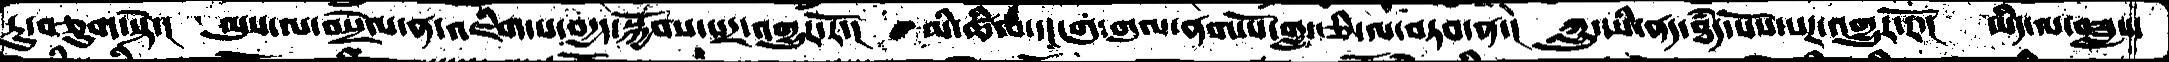ཏུ་བཅུག་སྟེ་།  ལུས་ལ་བསྲེལ་ན་འཇིགས་པ་བདྱད་སྐྱོབས་པར་འགྱུར་རོ་།  མི་ཚིལ་དང་གུ་གུལ་ནག་པོ་གླ་ཅི་ལ་བཏབ་ན་།  ཀླུ་ཡི་ནད་ཐཾད་སོས་པར་འགྱུར་རོ་།  ཡིད་ལ་བཟླས་
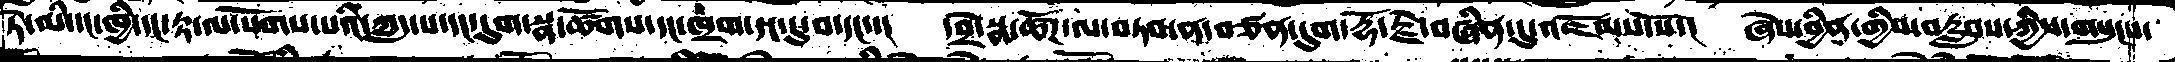ཏེ་མིང་དང་ཁྱི་དང་རྟ་ལ་སོགས་པའི་ཀླད་པ་དང་དུག་སྣ་ཚོགས་དང་ཁྲག་དང་དུ་བ་དང་་།  དབྲེ་སྣ་ཚོཌ་ལ་བཏབ་ན་བཙན་དུག་རྡོ་རྗེ་བཞིན་དུ་འཇོམས་སོ་།  ཞེས་བྱིན་གྱིས་བརླབས་ཀྱིས་གསུངས་
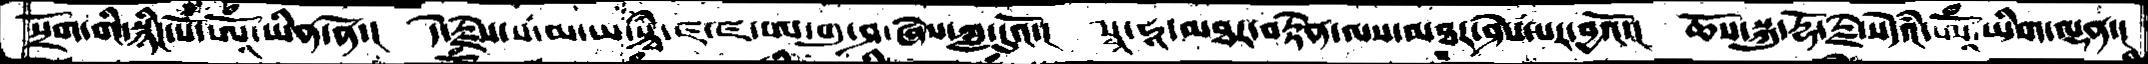སྲོག་གི་སྙིང་པོ་ཨཱོཾ་ཡིན་ནོ་།  དེ་རྗེས་ས་མ་ཡ་སྟྭཾ་ཛ་ཛ་ཨ་གུ་ཤ་ཞེས་ཀླ་དུའོ་།  སྭ་ཧཱ་མཐར་བརྟེན་ལས་མཐར་ཤེས་པར་བྱའོ་།  ཆོས་སྐུ་རྡོ་རྗེ་སེདཾའ་ཨཱོཾ་ཡིག་ལྷན་།
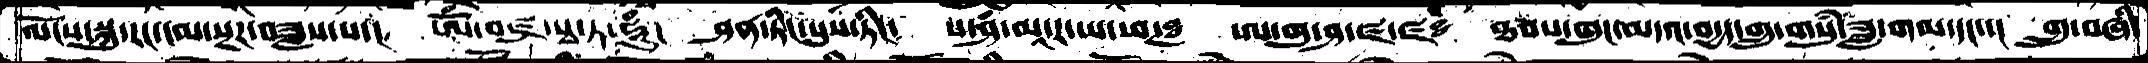ལོངས་སྐུ་རང་དམ་སྔཌ་བཟླས་པ་། ཨོཾ་བཛྲ་སྭ་ཏ་ཧཱུཾ།  ཤན་ཏིང་སུས་ཏིང༴  པ་ཤཾ་མཱ་ར་ཡ་ཕཊཿ  ཨ་གུ་ཤ་ཛ་ཛཿ  ཐབས་ཁུང་མདའ་བདྱད་གྲུ་གསུཾ་ཟླ་གམ་དང་་།  གྲུ་བཞི་
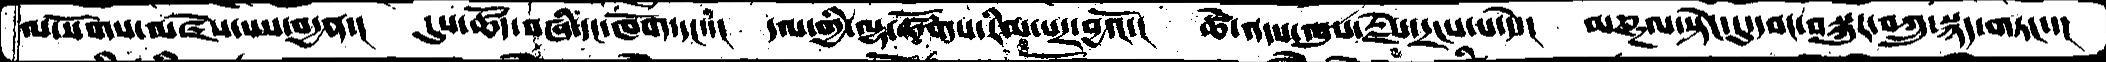ལ་སོགས་མཛེས་པས་བདྱན་།  དུས་ཚོོད་བཞི་དང་ཁོག་དང་་།  དལ་གྱི་ལྷ་ཚོགས་རིམ་པར་བྱའོ་།  ཚེ་འདས་ལུས་རྗེས་དྲངས་པ་དེ་།  མཎྜལ་སྟེང་དུ་དབང་བསྐུར་བཀྲུ་སྙད་གཏང་་།
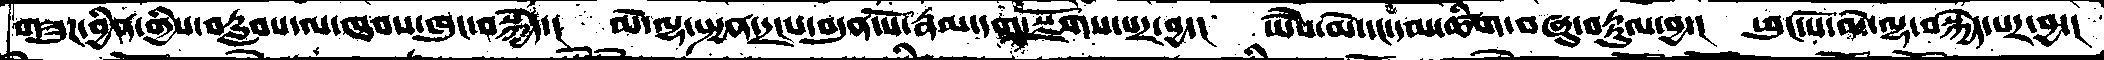གཟུཌ་བྱིན་གྱིས་བརླབས་ལ་ཐབས་ཁུང་བསྐྱེད་།  མེ་ལྷ་སྤྱན་དྲངས་བདུན་པོ་རྣམ་དག་སྫོགས་པར་བྱ་།  ཡཻས་མེ་དང་དམ་ཚིག་བཞུ་བརྟུལ་བྱ་།  ཕུང་པོ་མེ་ལྷ་བསྐྱེད་པར་བྱ་།
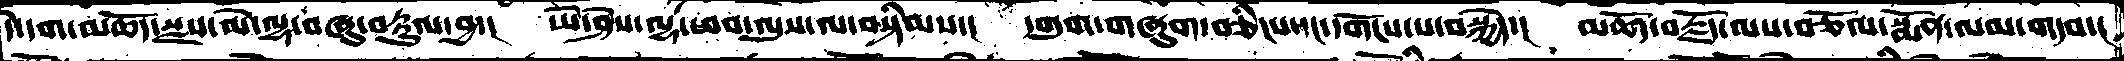དེ་དག་མཆོད་སྫས་མེ་ལྷ་བཞུ་བརྟུལ་བྱ་།  ཡེ་ཤེས་ལྷ་ཕབ་ལུས་ལ་བསྟིམས་།  དགུག་གཞུག་བཅིངས་དང་དགོངས་པ་བསྐྱེད་།  མཆོད་བརྗོད་ལས་བཅོལ་སྨོན་ལམ་གདབ་།
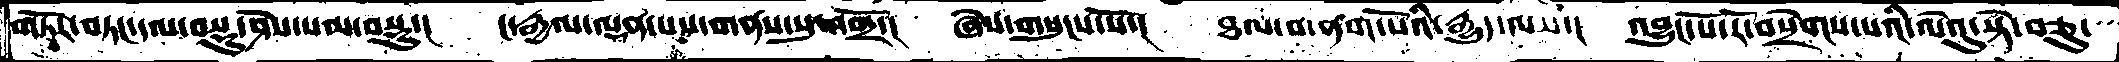གཏོར་བཏང་དལ་བསྡུ་ཤེས་སམ་བསྡུ་།  ང་རྒྱལ་ལྡན་པས་གནས་སུ་འགྲོ་།  ཞེས་གསུངས་སོ་།  ཐལ་བ་ནག་པོའི་རྒྱུད་ལས་།  འབྱུང་པོ་རོ་བསྲེགས་པའི་ལེའུ་སྟེ་བཅུ་
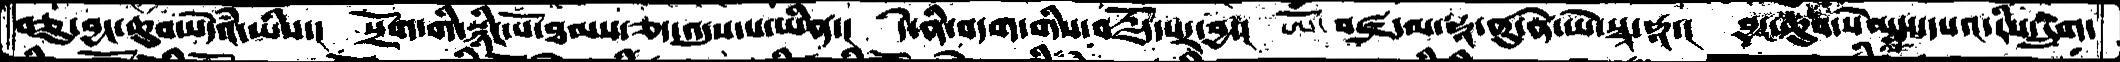བཅུ་བྱང་ཆུབ་སེཾདའ་ཡིས་།  སྲོག་གི་སྙིང་པོ་ཐམས་ཅད་འདུས་པ་ཡིན་།  དེ་ནི་བདག་གིས་བརྗོད་པར་བྱ་།  ཨོཾ་བཛྲ་མ་ཧཱ་ནུ་ནེ་ཡེ་སྭ་ཧཱ་།  བྱང་ཆུབ་སེམས་དཔའ་རིས་དྲུག་
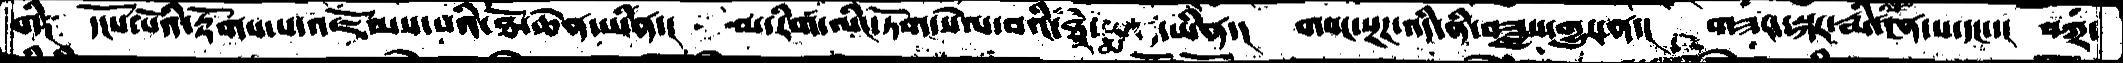གི༑ དངོས་པོའི་རྟོགས་པ་འཇོམས་པའི་ཐོ་ཆེན་ཡིན་།  མ་རིག་ལིང་ཏོག་སེལ་བའི་ཐེ་མ་ཡིན་།  གསང་སྔཌ་འདི་ནི་བཟླས་གྱུར་ན་།  གཟའ་སྐར་རྨི་ངན་པ་དང་་། བཀྲ་
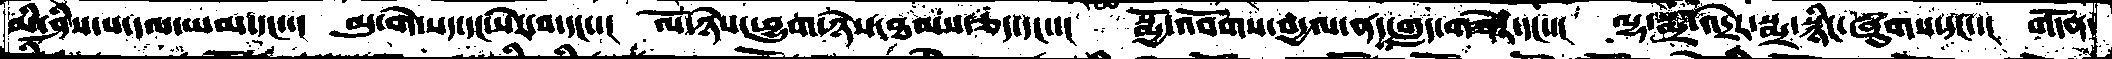མི་ཤེས་པ་དལ་ཡམ་དང་་།   མུ་གེ་སད་དང་སེར་བ་དང་་།  ལོ་ཉེས་ཕྱུག་ཉེས་ཐམས་ཅད་དང་་།  སྨྱོ་འབོགས་བདྱལ་ནད་གླད་གཟེར་དང་་།  ལྷ་སྨྲ་འདྲེར་སྨྲ་སྙིང་ཞུགས་དང་་།  གདོན་
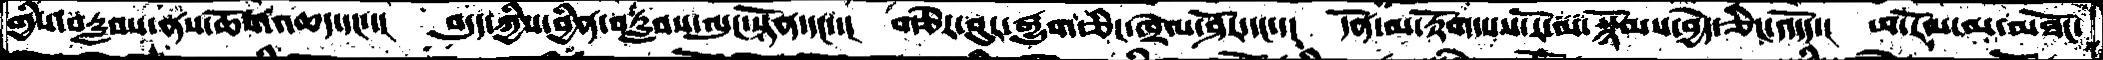གྱིས་བརླབས་ནས་ཆོས་འཆད་དང་་།  བདུད་ཀྱིས་བྱིན་བརླབས་ལུང་སྟོན་དང་་།  གཅེར་བུ་རྒྱུག་ཅིང་ཁྲེལ་ཤོར་དང་་།  དོན་མ་རྟོག་པས་རོ་ལ་སྙོམས་བྱེད་ཅིང་འདོད་།  ཕ་རོལ་མ་མཐོང་
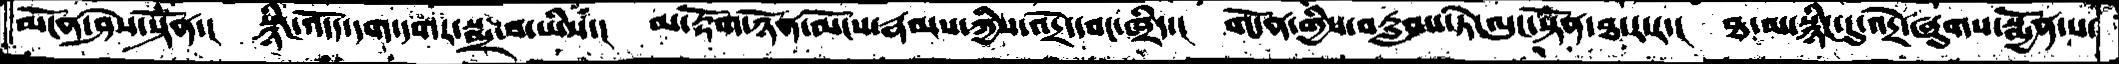མངོན་ཤེས་སྟོན་།  སྙིང་འདོད་དག་དགར་སྨྲ་བ་ཡིས་།  མ་རྟོག་ཉོན་མོངས་རྣམས་ཀྱིས་འདྲེ་བང་ཁྲིད་།  གདོན་གྱིས་བརླབས་ཏེ་ལུང་སྟོན་ཐ་ར་ར་།  ཐ་མ་སྙིང་དུ་འདྲེ་ཞུགས་སྨྱོན་པ་
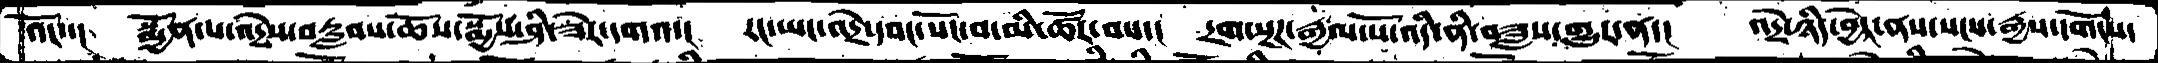འོང་་།  སྨྱོན་པ་འདྲེས་བརླབས་ཆོས་སྨྱོས་ཤི་ཟེར་དགའ་།  རང་ཡང་འདྲེ་དབང་སོང་བ་མི་ཚོར་བས་།  དྲག་སྔཌ་རྒྱལ་པོ་འདི་ནི་བཟླས་གྱུར་ན་།་ འདྲེ་ཉིད་བྱེང་ནས་སངས་རྒྱས་དགོངས་
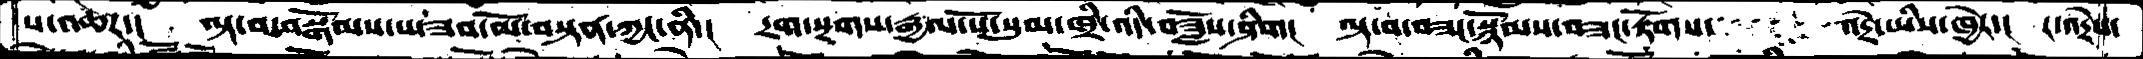པ་འཚེར་།  ལྟ་བ་བསྒོམས་པ་ཟབ་མོ་བསྟན་ཀྱང་ནི་།  དྲག་སྔགས་རྒྱལ་པོ་སུམ་ཁྲི་འདི་བཟློས་ཤིག།  ལྟ་བ་བཟང་སྙོམས་བཟང་རྟོགས་   འདྲེ་ཡིས་ཁྱེར་།  ང་འདྲེས་
